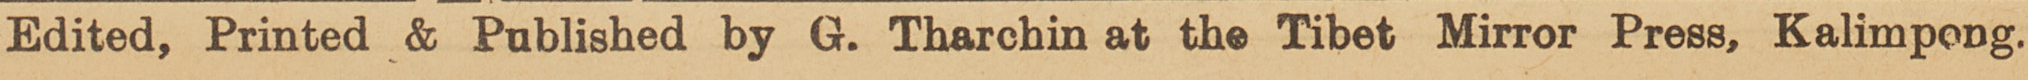Edited, Printed & Published by G. Tharchin at the Tibet Mirror Press, Kalimpong.
